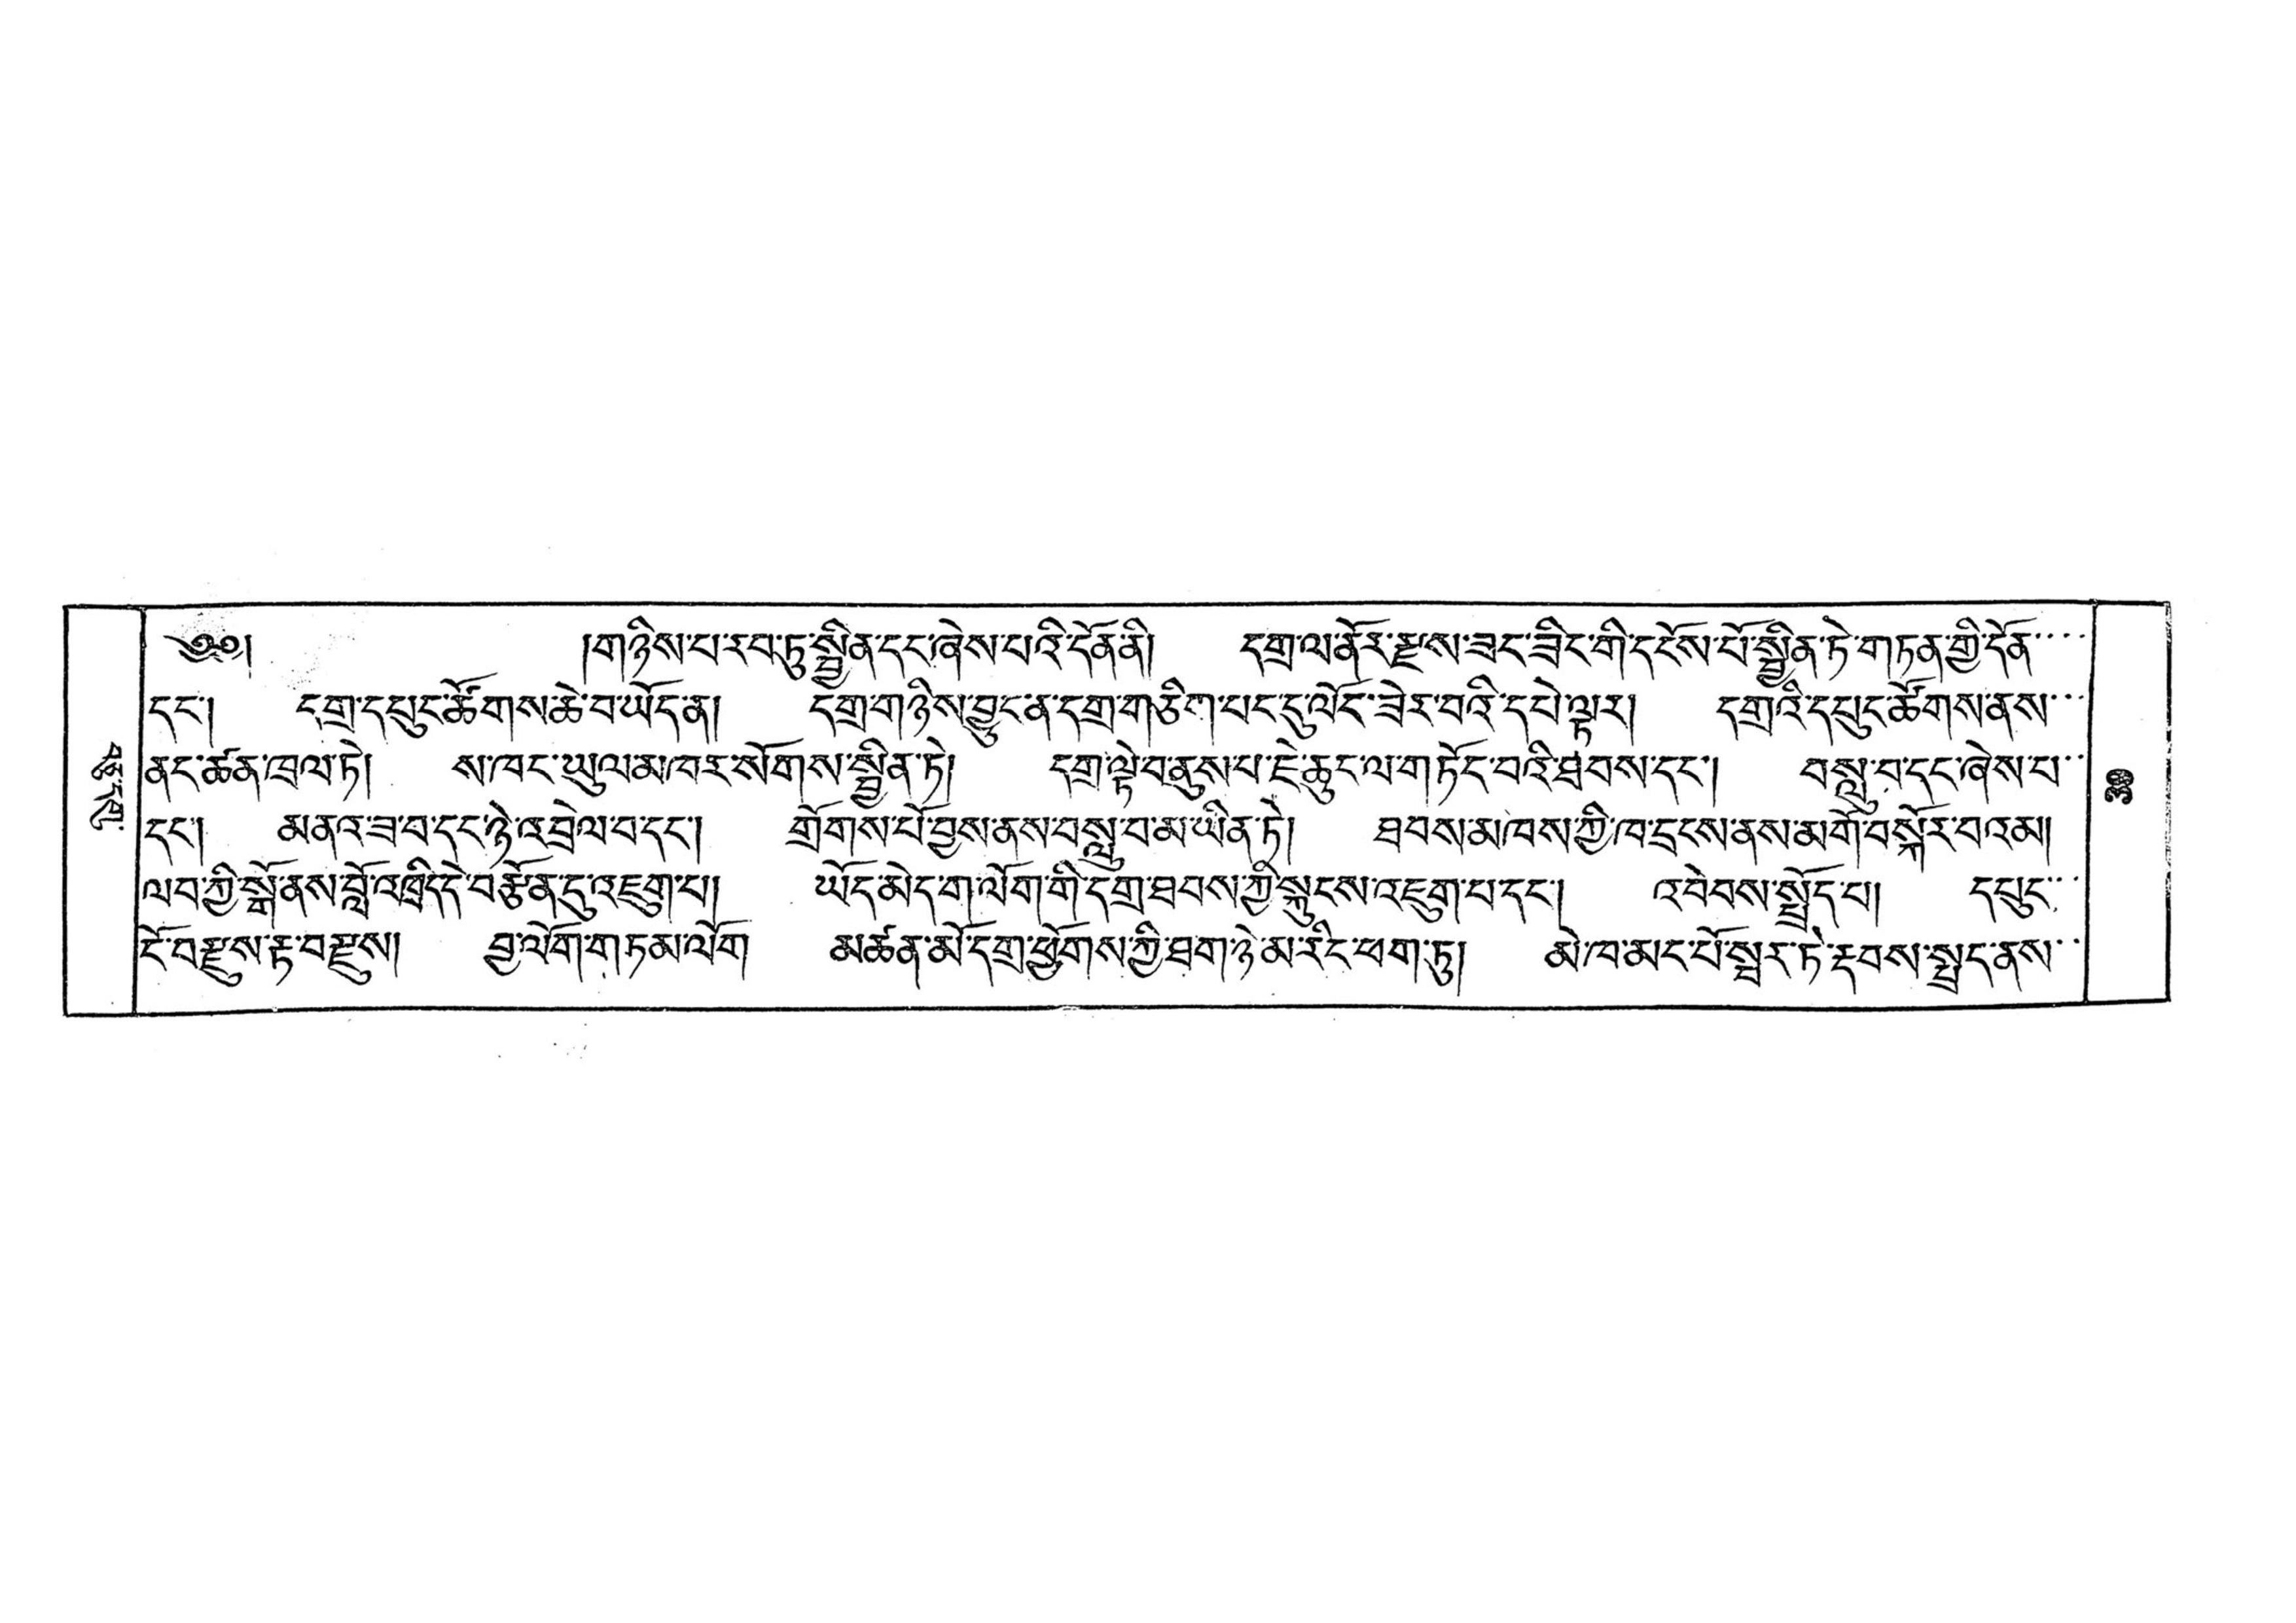བཅུ་དགུ་
༄༅། །གཉིས་པ་རབ་ཏུ་སྦྱིན་དང་ཞེས་པའི་དོན་ནི། དགྲ་ལ་ནོར་རྫས་ཟད་ཟིང་གི་དངོས་པོ་སྦྱིན་ཏེ་གཏན་གྱི་དོན་་་་
དང་། དགྲ་དཔུང་ཚོགས་ཆེ་བ་ཡོད་ན། དགྲ་གཉིས་བྱུང་ན་དགྲ་གཅིག་པང་དུ་ལོང་ཟེར་བའི་དཔེ་ལྟར། དགྲའི་དཔུང་ཚོགས་ནས་་
ནང་ཚན་ཁྲལ་ཏེ། ས་ཁང་ཡུལ་མཁར་སོགས་སྦྱིན་ཏེ། དགྲ་ལྟེ་བ་ནུས་པ་ཇེ་ཆུང་ལ་གཏོང་བའི་ཐབས་དང་། བསླུ་བ་དང་ཞེས་པ་་
དང་། མནའ་ཟ་བ་དང་ཉེ་འབྲེལ་བ་དང་། གྲོགས་པོ་བྱས་ནས་བསླུ་བ་མ་ཡིན་ཏེ། ཐབས་མཁས་ཀྱི་ཁ་དྲངས་ནས་མགོ་བསྐོར་བའམ།
ལབ་ཀྱི་སྒོ་ནས་བློ་འཁྲིད་དེ་བརྩོན་དུ་འཇུག་པ། ཡོད་མེད་ག་ལོག་གི་དགྲ་ཐབས་ཀྱི་སྐུངས་འཇུག་པ་དང་། འབེབས་སྤྲོད་པ། དཔུང་་་
ངོ་བརྫུས་རྟ་བརྫུས། བྱ་ལོག་གཏམ་ལོག མཚན་མོ་དགྲ་ཕྱོགས་ཀྱི་ཐག་ཉེ་མ་རིང་ཕག་ཏུ། མེ་ཁ་མང་པོ་སྦར་ཏེ་རྡབས་སྤྲད་ནས་་
